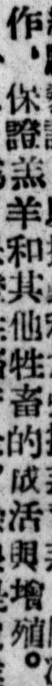作，保證羔羊和其他牲畜的成活與增殖。
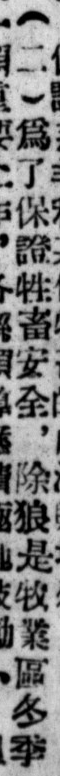（二）爲了保證牲畜安全，除狼是牧業區多季
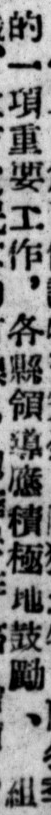的一項重要工作，各縣領導應積極地鼓勵、 組
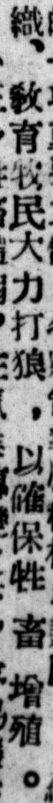織、敎育牧民大力打狼 ，以確保牲 畜 增殖。
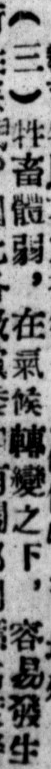（三）牲畜體弱，在氣候轉變之下，容易發生
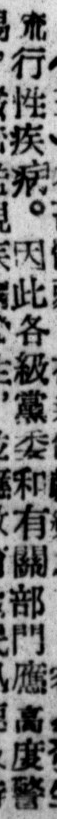流行性疾病。因此各級黨委和有關部門應高度警
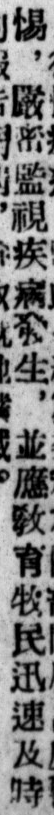惕，嚴密監視疾病發生，並應敎育牧民迅速及時
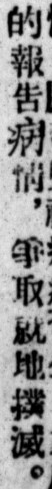的報告病情，爭取就地撲滅。
